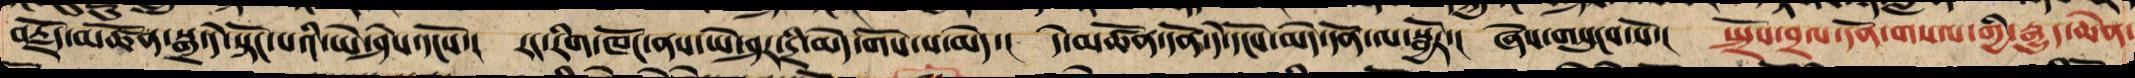བརྗོད་མཚོན་སྒྲ་དེ་སྟོང་པའི་ཡེ་ཤེས་དངོས་། རང་རིག་ཁོང་ནས་ཡེ་ཤར་དྲི་མེད་གོས་པ་མེད་། དེས་མཚོན་དོན་དངོས་མེད་དོན་ལ་སྦྱོར་། ཞེས་གསུངས་སོ་། སྤྲོས་བྲལ་དོན་གསལ་གྱི་རྒྱུད་ཆེན་
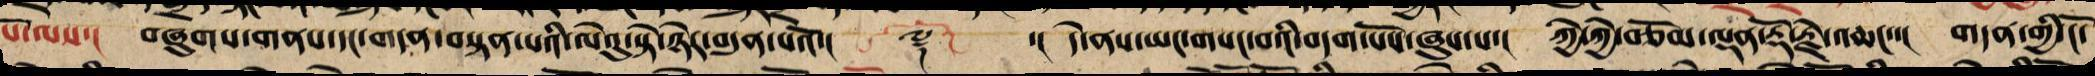པོ་ལས་། བཞུགས་གནས་དང་གདན་བསྟན་པའི་ལེའུ་སྟེ་ཉེར་བདུན་པའོ་།། ༈ ་། དེ་ནས་ཡང་གསང་བའི་བདག་པོས་ཞུས་པ་། ཀྱེ་ཀྱེ་བཅོམ་ལྡན་རྡོ་རྗེ་འཆང་་། གདན་གྱི་ངོ་
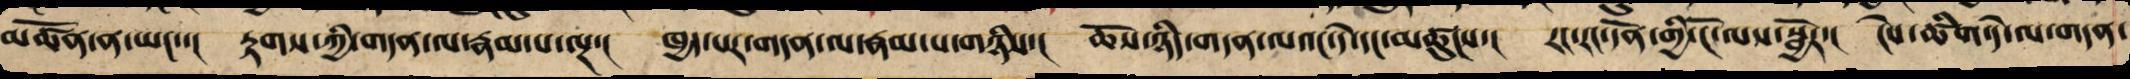མཚོན་ན་ཡང་་། རྟགས་ཀྱི་གདན་ལ་རྣམ་པ་ལྔ་། ཁྱད་པར་གདན་ལ་རྣམ་པ་གཉིས་། ཆོས་ཉིད་གདན་ལའང་དེ་དང་མཚུངས་། རང་རང་དོན་གྱི་ངོ་ལས་སྦྱོར་། ངེས་ཚིག་དེ་ལ་གདན་
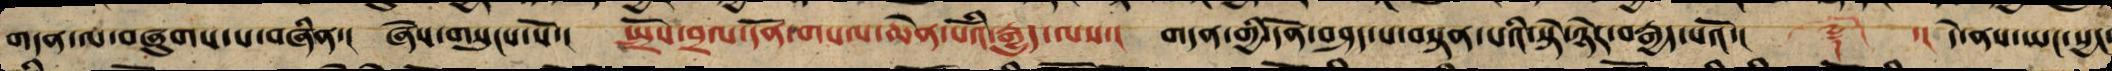གདན་ལ་བཞུགས་པ་བཞིན་། ཞེས་གསུངས་སོ་། སྤྲོས་བྲལ་དོན་གསལ་ཆེན་པོའི་རྒྱུད་ལས་། གདན་གྱི་དོན་བཤད་པ་བསྟན་པའི་སྟེ་ཉེར་བརྒྱད་པའོ་།། ༈ ་། དེ་ནས་ཡང་སྱང་
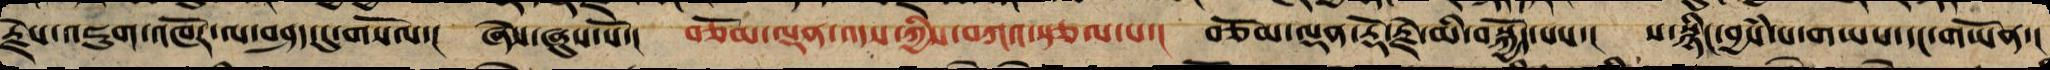རྗེས་འཇུག་འཁོར་ལ་བཤད་དུ་གསོལ་། ཞེས་ཞུས་སོ་། བཅོམ་ལྡན་འདས་ཀྱིས་བཀའ་སྩལ་པ་། བཅོམ་ལྡན་རྡོ་རྗེ་མི་བསྐྱོད་པས་། ས་སྙིང་བྱཾས་པ་གཡས་དང་གཡོན་།
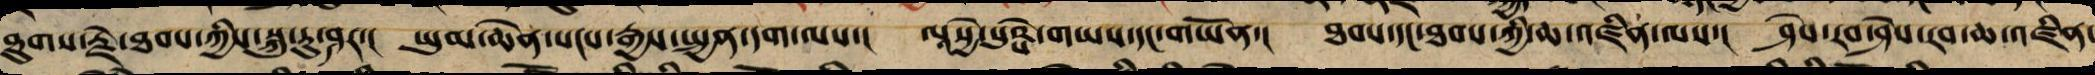ཐུགས་རྗེ་ཐབས་ཀྱི་སྐུ་རུ་ཤར་། ཡུམ་ཆེན་སངས་རྒྱས་སྤྱན་དག་ལས་། ལཱ་སྱེ་པུཥྤེ་གཡས་དང་གཡོན་། ཐབས་དང་ཐབས་ཀྱི་ཆ་འཛིན་ལས་། ཤེས་རབ་ཤེས་རབ་ཆ་འཛིན་
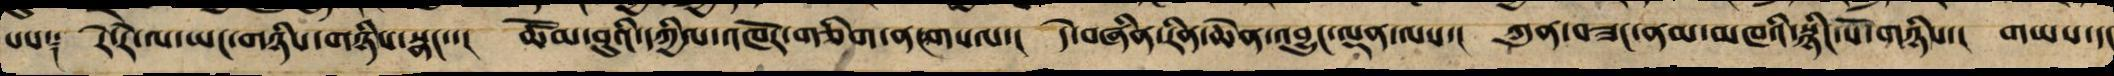པས༑ རེ་རེ་ལ་ཡང་གཉིས་གཉིས་སྣང་་། ཚོམ་བུའི་དཀྱིལ་འཁོར་གཅིག་ན་གསལ་། དེ་བཞིན་རིན་ཆེན་འབྱུང་ལྡན་ལས་། ཀུན་བཟང་ནམ་མཁའི་སྙིང་པོ་གཉིས་། གཡས་དང
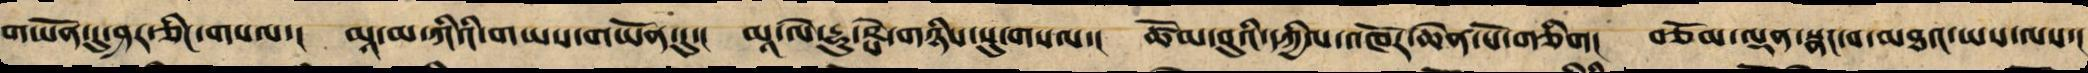གཡོན་དུ་ཤར་ཅིང་གསལ་། མཱ་མ་ཀའི་གཡས་གཡོན་དུ་། མཱ་ལེ་དྷུ་ཥྤེ་གཉིས་སུ་གསལ་། ཚོམ་བུའི་དཀྱིལ་འཁོར་ཆེན་པོ་གཅིག། བཅོམ་ལྡན་སྣང་བ་མཐའ་ཡས་ལས་།
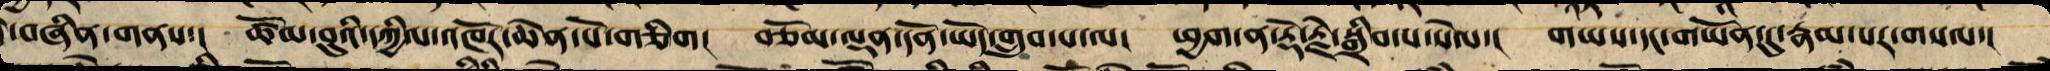་བཞིན་གནས་། ཚོམ་བུའི་དཀྱིལ་འཁོར་ཆེན་པོ་གཅིག། བཅོམ་ལྡན་དོན་ཡོད་གྲུབ་པ་ལ་། ཕྱག་ན་རྡོ་རྗེ་སྒྲིབ་པ་སེལ་། གཡས་དང་གཡོན་དུ་རྣམ་པར་གསལ་།
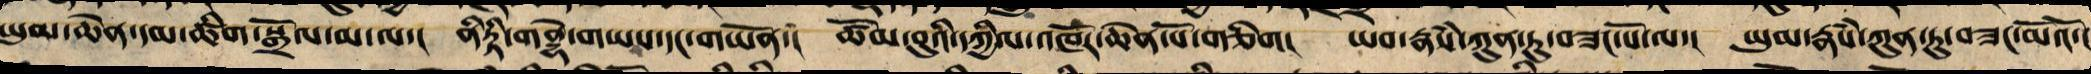ཡུམ་ཆེན་དམ་ཚིག་སྒྲོལ་མ་ལ་། ནྲིཏྟི་གནྡྷེ་གཡས་དང་གཡོན་། ཚོམ་བུའི་དཀྱིལ་འཁོར་ཆེན་པོ་གཅིག། ཡབ་རྣཾས་ཀུན་ཏུ་བཟང་པོ་ལ་། ཡུམ་རྣཾས་ཀུན་ཏུ་བཟང་མོའོ་། །
